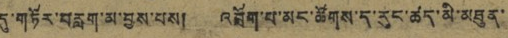དུ་གཏོར་བརླག་མ་བྱས་པས། འབྲོག་པ་མང་ཚོགས་ད་རུང་ཚད་མི་མཐུན་
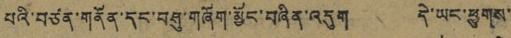པའི་བཙན་གནོན་དང་བཤུ་གཞོག་མྱོང་བཞིན་འདུག དེ་ཡང་ཕྱུགས་
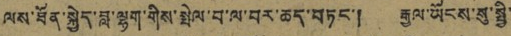ལས་ཐོན་སྐྱེད་བླ་ལྷག་གིས་སྤེལ་བ་ལ་བར་ཆད་བཏང་། རྒྱལ་ཡོངས་སུ་སྤྱི་
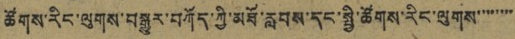ཚོགས་རིང་ལུགས་བསྒྱུར་བཀོད་ཀྱི་མཐོ་རླབས་དང་སྤྱི་ཚོགས་རིང་ལུགས་་་་་་་་
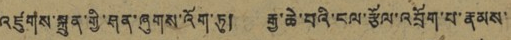འཛུགས་སྐྲུན་གྱི་ཤན་ཞུགས་འོག་ཏུ། རྒྱ་ཆེ་བའི་ངལ་རྩོལ་འབྲོག་པ་རྣམས་
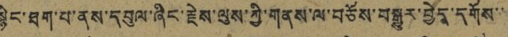སྙིང་ཐག་པ་ནས་དབུལ་ཞིང་རྗེས་ལུས་ཀྱི་གནས་ལ་བཅོས་བསྒྱུར་བྱེད་དགོས་་
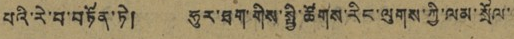པའི་རེ་བ་བཏོན་ཏེ། ཧུར་ཐག་གིས་སྤྱི་ཚོགས་རིང་ལུགས་ཀྱི་ལམ་སྲོལ་
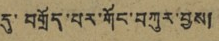དུ་བགྲོད་པར་གོང་བཀུར་བྱས།
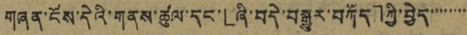གཞན་ངོས་དེའི་གནས་ཚུལ་དང་「ཞི་བདེ་བསྒྱུར་བཀོད」ཀྱི་བྱེད་་་་་་་་
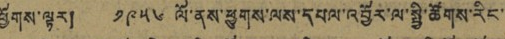ཕྱོགས་ལྟར། ༡༩༥༦ ལོ་ནས་ཕྱུགས་ལས་དཔལ་འབྱོར་ལ་སྤྱི་ཚོགས་རིང་
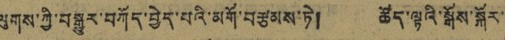ལུགས་ཀྱི་བསྒྱུར་བཀོད་བྱེད་པའི་མགོ་བརྩམས་ཏེ། ཚོད་ལྟའི་སྒོས་སྐོར་
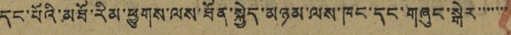དང་པོའི་མཐོ་རིམ་ཕྱུགས་ལས་ཐོན་སྐྱེད་མཉམ་ལས་ཁང་དང་གཞུང་སྒེར་་་་་་་
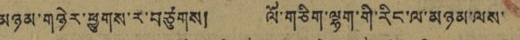མཉམ་གཉེར་ཕྱུགས་ར་བཙུགས། ལོ་གཅིག་ལྷག་གི་རིང་ལ་མཉམ་ལས་
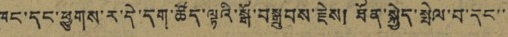ཁང་དང་ཕྱུགས་ར་དེ་དག་ཚོད་ལྟའི་སྒོ་བསྒྲུབས་རྔེས། ཐོན་སྐྱེད་སྤེལ་བ་དང་་
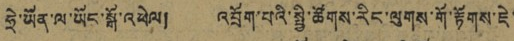ཧྲེ་ཡོན་ལ་ཡོང་སྒོ་འཕེལ། འབྲོག་པའི་སྤྱི་ཚོགས་རིང་ལུགས་གོ་རྟོགས་ཇེ་
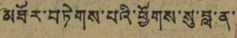མཐོར་བཏེགས་པའི་ཕྱོགས་སུ་བླ་ན་
